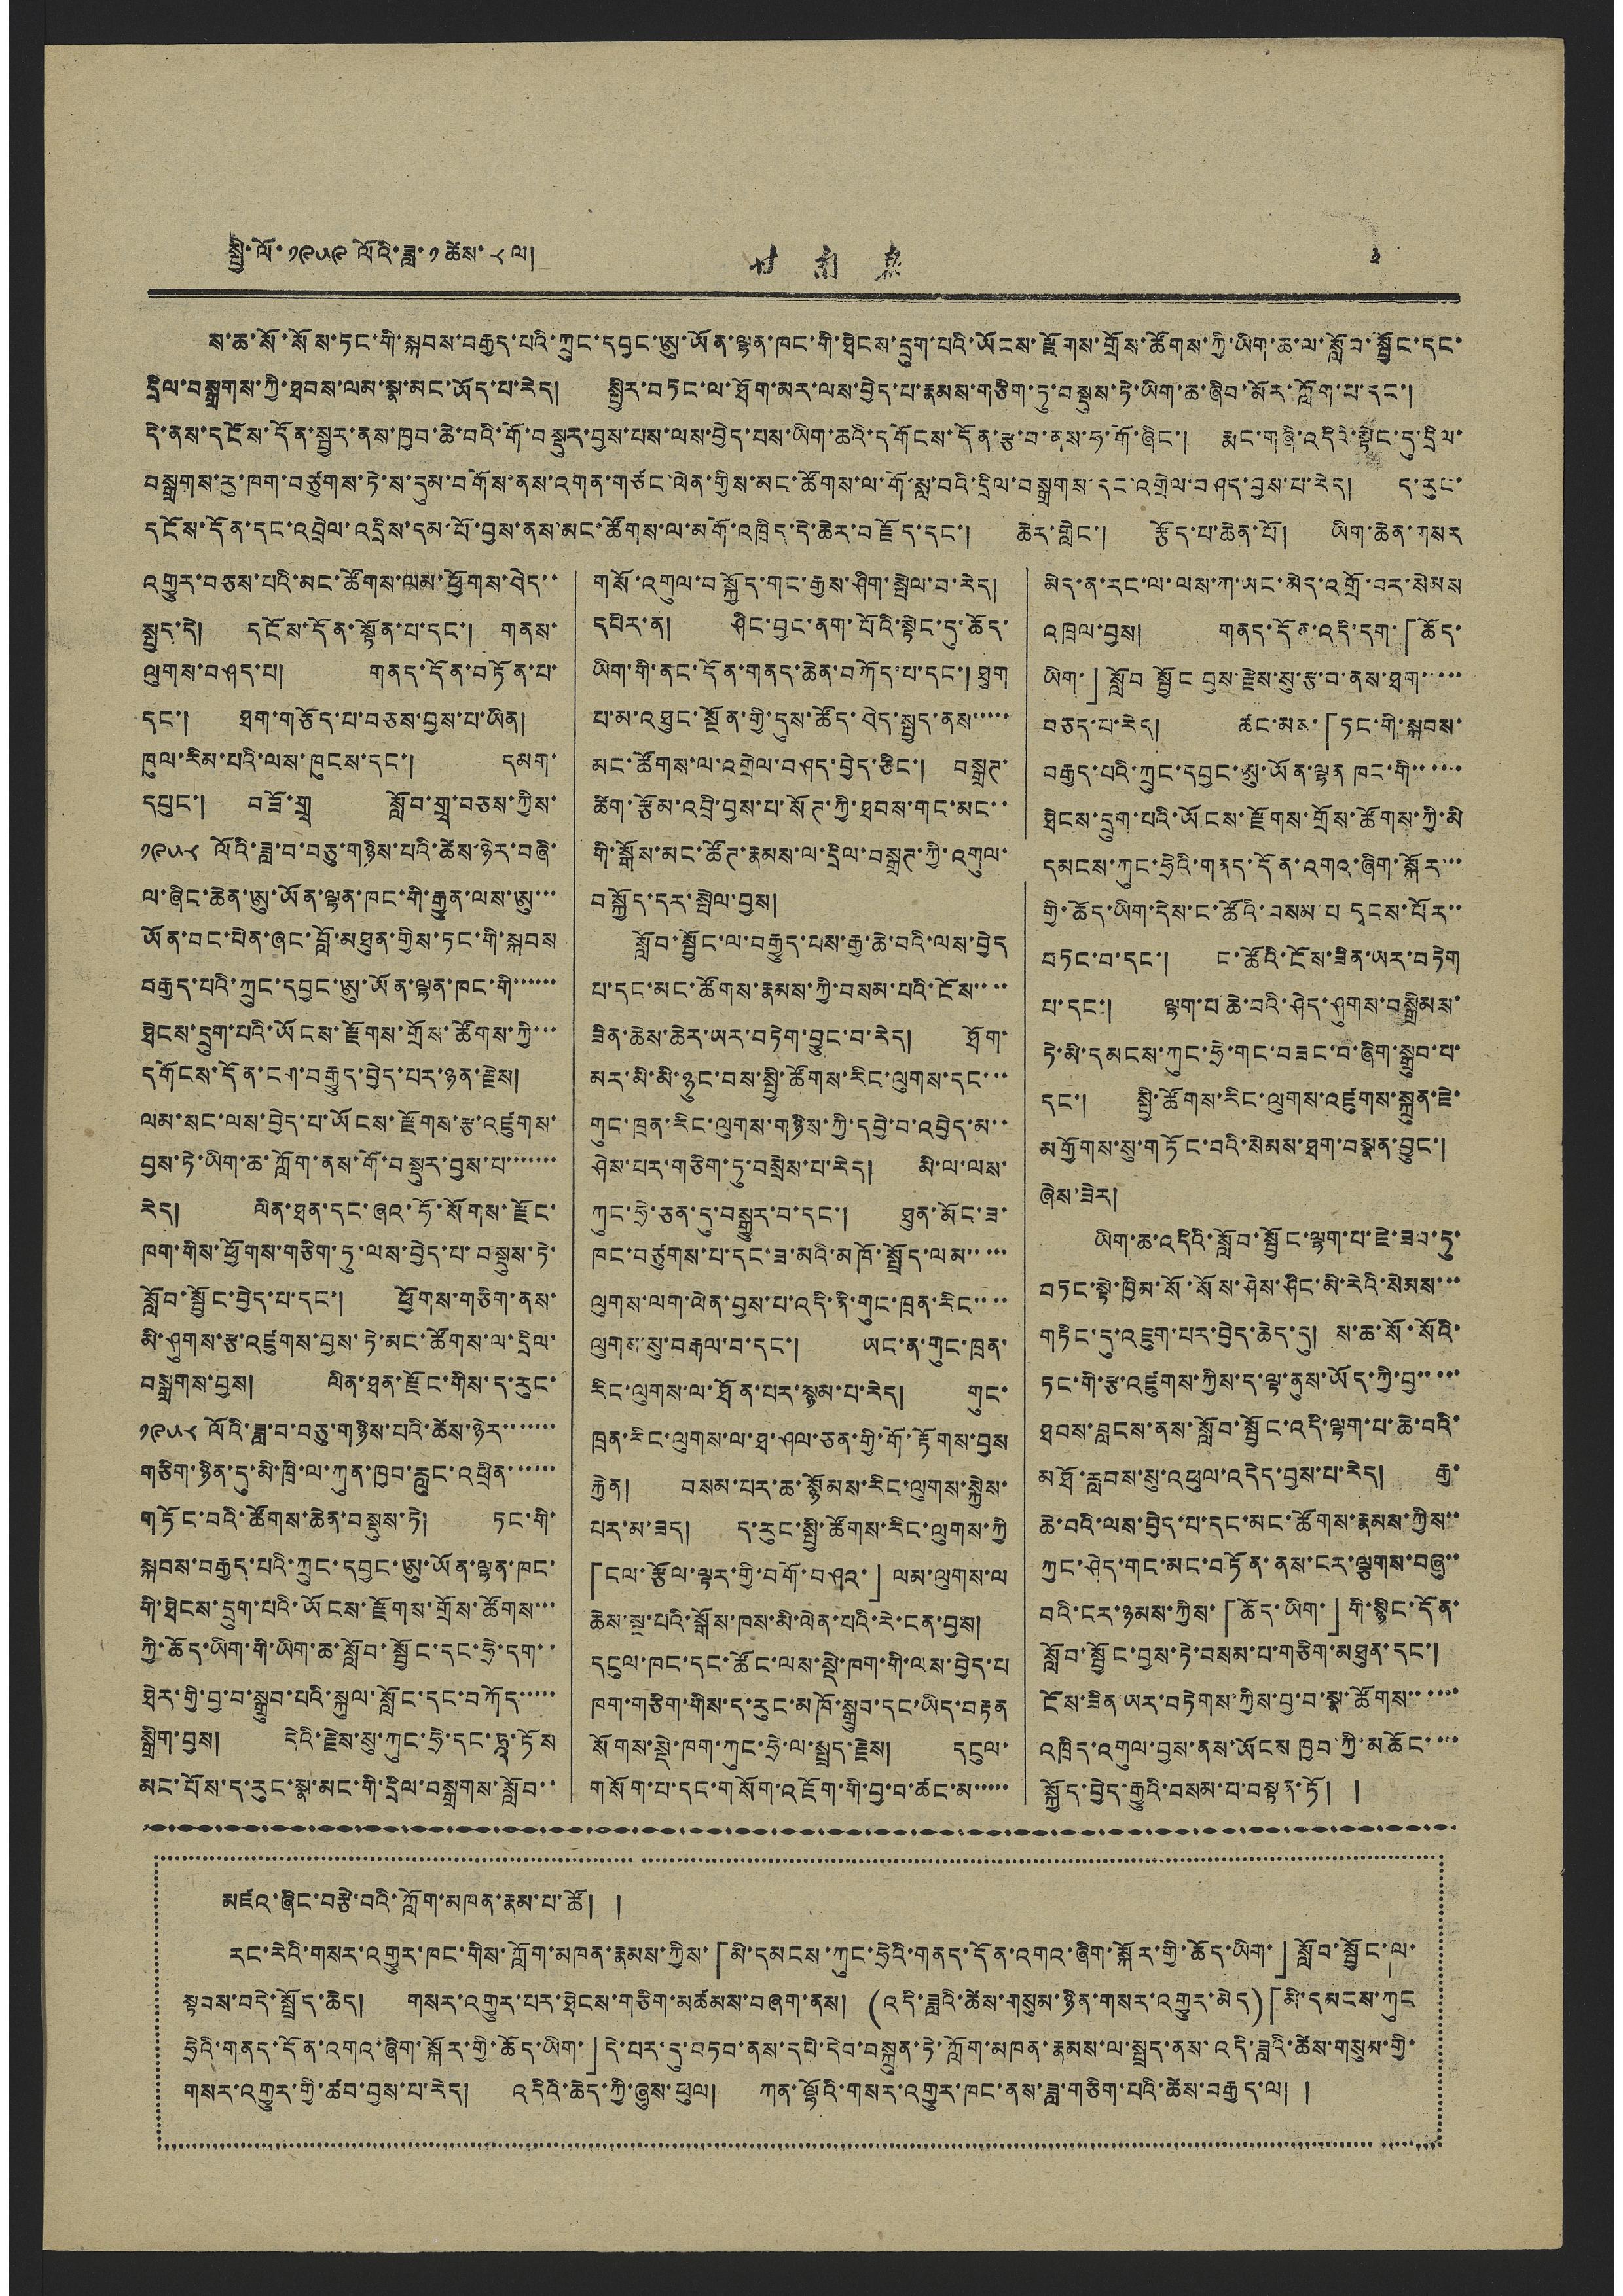སྤྱི་ལོ་ ༡༩༥༩ ལོའི་ཟླ་ ༡ ཚེས་ ༨ ལ། 甘 南 報 ༣
ས་ཆ་སོ་སོས་ཏང་གི་སྐབས་བརྒྱད་པའི་ཀྲུང་དབྱང་ཨུ་ཡོན་ལྷན་ཁང་གི་ཐེངས་དྲུག་པའི་ཡོངས་རྫོགས་གྲོས་ཚོགས་ཀྱི་ཡིག་ཆ་ལ་སློབ་སྦྱོང་དང་
དྲིལ་བསྒྲགས་ཀྱི་ཐབས་ལམ་སྣ་མང་ཡོད་པ་རེད། སྤྱིར་བཏང་ལ་ཐོག་མར་ལས་བྱེད་པ་རྣམས་གཅིག་ཏུ་བསྡུས་ཏེ་ཡིག་ཆ་ཞིབ་མོར་ཀློག་པ་དང་།
དེ་ནས་དངོས་དོན་སྦྱར་ནས་ཁྱབ་ཆེ་བའི་གོ་བསྡུར་བྱས་པས་ལས་བྱེད་པས་ཡིག་ཆའི་དགོངས་དོན་རྩ་བ་ནས་ཧ་གོ་ཞིང་། རྨང་གཞི་འདིའི་སྟེང་དུ་དྲིལ་
བསྒྲགས་རུ་ཁག་བཙུགས་ཏེ་ས་དུམ་བགོས་ནས་འགན་གཙང་ལེན་གྱིས་མང་ཚོགས་ལ་གོ་སླ་བའི་དྲིལ་བསྒྲགས་དང་འགྲེལ་བཤད་བྱས་པ་རེད། ད་རུང་
དངོས་དོན་དང་འབྲེལ་འདྲིས་དམ་པོ་བྱས་ནས་མང་ཚོགས་ལ་མགོ་འཁྲིད་དེ་ཆེར་བརྫོད་དང་། ཆེར་གླེང་། རྩོད་པ་ཆེན་པོ། ཡིག་ཆེན་གསར
འགྱུར་བཅས་པའི་མང་ཚོགས་ལམ་ཕྱོགས་བེད་་
སྤྱད་དེ། དངོས་དོན་སྟོན་པ་དང་། གནས་
ལུགས་བཤད་པ། གནད་དོན་བཏོན་པ་
དང་། ཐག་གཅོད་པ་བཅས་བྱས་པ་ཡིན།
ཁུལ་རིམ་པའི་ལས་ཁུངས་དང་། དམག་
དཔུང་། བཟོ་གྲྭ སློབ་གྲྭ་བཅས་ཀྱིས་
༡༩༥༨ ལོའི་ཟླ་བ་བཅུ་གཉིས་པའི་ཚེས་ཉེར་བཞི་
ལ་ཞིང་ཆེན་ཨུ་ཡོན་ལྷན་ཁང་གི་རྒྱུན་ལས་ཨུ་་་
ཡོན་བང་པེན་ཞང་བློ་མཐུན་གྱིས་ཏང་གི་སྐབས
བརྒྱད་པའི་ཀྲུང་དབྱང་ཨུ་ཡོན་ལྷན་ཁང་གི་་་་་་
ཐེངས་དྲུག་པའི་ཡོངས་རྫོགས་གྲོས་ཚོགས་ཀྱི་་་
དགོངས་དོན་ངག་བརྒྱུད་བྱེད་པར་ཉན་རྗེས།
ལམ་སང་ལས་བྱེད་པ་ཡོངས་རྫོགས་རྩ་འཛུགས་
བྱས་ཏེ་ཡིག་ཆ་ཀློག་ནས་གོ་བསྡུར་བྱས་པ་་་་་་་
རེད། ལིན་ཐན་དང་ཞའ་ཧོ་སོགས་རྫོང་
ཁག་གིས་ཕྱོགས་གཅིག་ཏུ་ལས་བྱེད་པ་བསྡུས་ཏེ་
སློབ་སྦྱོང་བྱེད་པ་དང་། ཕྱོགས་གཅིག་ནས་
མི་ཤུགས་རྩ་འཛུགས་བྱས་ཏེ་མང་ཚོགས་ལ་དྲིལ་
བསྒྲགས་བྱས། ལིན་ཐན་རྫོང་གིས་ད་རུང་
༡༩༥༨ ལོའི་ཟླ་བ་བཅུ་གཉིས་པའི་ཚེས་ཉེར་་་་་་་
གཅིག་ཉིན་དུ་མི་ཁྲི་ལ་ཀུན་ཁྱབ་རླུང་འཕྲིན་་་་་་
གཏོང་བའི་ཚོགས་ཆེན་བསྡུས་ཏེ། ཏང་གི་
སྐབས་བརྒྱད་པའི་ཀྲུང་དབྱང་ཨུ་ཡོན་ལྷན་ཁང་
གི་ཐེངས་དྲུག་པའི་ཡོངས་རྫོགས་གྲོས་ཚོགས་་་
ཀྱི་ཆོད་ཡིག་གི་ཡིག་ཆ་སློབ་སྦྱོང་དང་ཧྲེ་དག་་
ཐེར་གྱི་བྱ་བ་སྒྲུབ་པའི་སྐུལ་སློང་དང་བཀོད་་་་་
སྒྲིག་བྱས། དེའི་རྗེས་སུ་ཀུང་ཧྲེ་དང་ཏཱ་ཏོས
མང་པོས་ད་རུང་སྣ་མང་གི་དྲིལ་བསྒྲགས་སློབ་་
གསོ་འགུལ་བསྐྱོད་གང་རྒྱས་ཤིག་སྤེལ་བ་རེད།
དཔེར་ན། ཤིང་བྱང་ནག་པོའི་སྟེང་དུ་ཆོད་
ཡིག་གི་ནང་དོན་གནད་ཆེན་བཀོད་པ་དང་། ཐུག
པ་མ་འཐུང་སྔོན་གྱི་དུས་ཚོད་བེད་སྤྱད་ནས་་་་་
མང་ཚོགས་ལ་འགྲེལ་བཤད་བྱེད་ཅིང་། བསྒྲཊ་
ཚིག་རྩོམ་འབྲི་བྱས་པ་སོཊ་ཀྱི་ཐབས་གང་མང་་
གི་སྒོས་མང་ཚོཊ་རྣམས་ལ་དྲིལ་བསྒྲཊ་ཀྱི་འགུལ་
བསྐྱོད་དར་སྤེལ་བྱས།
སློབ་སྦྱོང་ལ་བརྒྱུད་པས་རྒྱ་ཆེ་བའི་ལས་བྱེད
པ་དང་མང་ཚོགས་རྣམས་ཀྱི་བསམ་པའི་ངོས་་་་
ཟིན་ཆེས་ཆེར་ཡར་བཏེག་བྱུང་བ་རེད། ཐོག་
མར་མི་མི་ཉུང་བས་སྤྱི་ཚོགས་རིང་ལུགས་དང་་་
གུང་ཁྲན་རིང་ལུགས་གཉིས་ཀྱི་དབྱེ་བ་འབྱེད་མ་་
ཤེས་པར་གཅིག་ཏུ་བསྲེས་པ་རེད། མི་ལ་ལས་
ཀུང་ཧྲེ་ཅན་དུ་བསྒྱུར་བ་དང་། ཐུན་མོང་ཟ་
ཁང་བཙུགས་པ་དང་ཟ་མའི་མགོ་སྤྲོད་ལམ་་ ་་་
ལུགས་ལག་ལེན་བྱས་པ་འདི་ནི་གུང་ཁྲན་རིང་་་་
ལུགས་སུ་བརྒལ་བ་དང་། ཡང་ན་གུང་ཁྲན་
རིང་ལུགས་ལ་ཐོན་པར་སྙམ་པ་རེད། གུང་
ཁྲན་རིང་ལུགས་ལ་ཐ་ཤལ་ཅན་གྱི་གོ་རྟོགས་བྱས
རྐྱེན། བསམ་པར་ཆ་སྙོམས་རིང་ལུགས་སྐྱེས་
པར་མ་ཟད། ད་རུང་སྤྱི་ཚོགས་རིང་ལུགས་ཀྱི
「ངལ་རྩོལ་ལྟར་གྱི་བགོ་བཤའ་」 ལམ་ལུགས་ལ
ཆེས་སྔ་པའི་སྒོས་ཁས་མི་ལེན་པའི་རེ་ངན་བྱས།
དངུལ་ཁང་དང་ཚོང་ལས་སྡེ་ཁག་གི་ལས་བྱེད་པ
ཁག་གཅིག་གིས་ད་རུང་མཁོ་སྒྲུབ་དང་ཡིད་བརྟན
སོགས་སྡེ་ཁག་ཀུང་ཧྲེ་ལ་སྤྲད་རྗེས། དངུལ་
གསོག་པ་དང་གསོག་འཇོག་གི་བྱ་བ་ཚང་མ་་་་་
མེད་ན་རང་ལ་ལས་ཀ་ཡང་མེད་འགྲོ་བར་སེམས
འཁྲལ་བྱས། གནད་དོན་འདི་དག་「ཆོད་
ཡིག་」སློབ་སྦྱོང བྱས་རྗེས་སུ་རྩ་བ་ནས་ཐག་་་་་
བཅད་པ་རེད། ཚང་མས་「ཏང་གི་སྐབས་
བརྒྱད་པའི་ཀྲུང་དབྱང་ཨུ་ཡོན་ལྷན་ཁང་གི་་་་་་
ཐེངས་དྲུག་པའི་ཡོངས་རྫོགས་གྲོས་ཚོགས་ཀྱི་མི
དམངས་ཀུང་ཧྲེའི་གནད་དོན་འགའ་ཞིག་སྐོར་་་
གྱི་ཆོད་ཡིག་དེས་ང་ཚོའི་བསམ་པ དྭངས་པོར་་
བཏང་བ་དང་། ང་ཚོའི་ངོས་ཟིན་ཡར་བཏེག
པ་དང་། ལྷག་པ་ཆེ་བའི་ཤེད་ཤུགས་བསྒྲིམས་
ཏེ་མི་དམངས་ཀུང་ཧྲེ་གང་བཟང་བ་ཞིག་སྒྲུབ་པ་
དང་། སྤྱི་ཚོགས་རིང་ལུགས་འཛུགས་སྐྲུན་ཇེ་
མགྱོགས་སུ་གཏོང་བའི་སེམས་ཐག་བསྣན་བྱུང་།
ཞེས་ཟེར།
ཡིག་ཆ་འདིའི་སློབ་སྦྱོང་ལྷག་པ་ཇེ་ཟབ་ཏུ་
བཏང་སྟེ་ཁྱིམ་སོ་སོས་ཤེས་ཤིང་མི་རེའི་སེམས་་་
གཏིང་དུ་འཇུག་པར་བྱེད་ཆེད་དུ། ས་ཆ་སོ་སོའི་
ཏང་གི་རྩ་འཛུགས་ཀྱིས་ད་ལྟ་ནུས་ཡོད་ཀྱི་བྱ་་ ་་་
ཐབས་བླངས་ནས་སློབ་སྦྱོང་འདི་ལྷག་པ་ཆེ་བའི་
མཐོ་རླབས་སུ་འཕུལ་འདེད་བྱས་པ་རེད། རྒྱ་
ཆེ་བའི་ལས་བྱེད་པ་དང་མང་ཚོགས་རྣམས་ཀྱིས་་
ཀྱང་ཤེད་གང་མང་བཏོན་ནས་ངར་ལྕགས་བཞུ་་
བའི་ངར་ཉམས་ཀྱིས་「ཆོད་ཡིག་」གི་སྙིང་དོན་
སློབ་སྦྱོང་བྱས་ཏེ་བསམ་པ་གཅིག་མཐུན་དང་།
ངོས་ཟིན་ཡར་བཏེགས་ཀྱིས་བྱ་བ་སྣ་ཚོགས་་་་་་
འཁྲིད་འགུལ་བྱས་ནས་ཡོངས་ཁྱབ་ཀྱི་མཆོང་་་་
སྐྱོད་བྱེད་རྒྱུའི་བསམ་པ་བསྟན་ཏོ། །
མཛའ་ཞིང་བརྩེ་བའི་ཀློག་མཁན་རྣམ་པ་ཚོ། །
རང་རེའི་གསར་འགྱུར་ཁང་གིས་ཀློག་མཁན་རྣམས་ཀྱིས་「མི་དམངས་ཀུང་ཧྲེའི་གནད་དོན་འགའ་ཞིག་སྐོར་གྱི་ཆོད་ཡིག་」སློབ་སྦྱོང་ལ་
སྟབས་བདེ་སྤྲོད་ཆེད། གསར་འགྱུར་པར་ཐེངས་གཅིག་མཚམས་བཞག་ནས། (འདི་ཟླའི་ཚེས་གསུམ་ཉིན་གསར་འགྱུར་མེད)「མི་དམངས་ཀུང
ཧྲེའི་གནད་དོན་འགའ་ཞིག་སྐོར་གྱི་ཆོད་ཡིག་」དེ་པར་དུ་བཏབ་ནས་དཔེ་དེབ་བསྐྲུན་ཏེ་ཀློག་མཁན་རྣམས་ལ་སྤྲད་ནས་འདི་ཟླའི་ཚེས་གསུམ་གྱི་
གསར་འགྱུར་གྱི་ཚབ་བྱས་པ་རེད། འདིའི་ཆེད་ཀྱི་ཞུས་ཕུལ། ཀན་ལྷོའི་གསར་འགྱུར་ཁང་ནས་ཟླ་གཅིག་པའི་ཚེས་བརྒྱད་ལ། །
